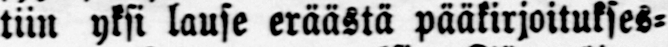tiin yksi lause eräästä pääkirjoitukses-
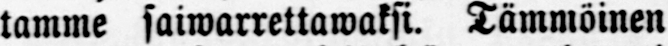tamme saiwarrettawaksi. Tämmöinen
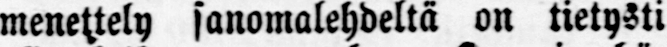menettely sanomalehdeltä on tietysti
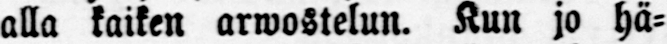alla kaiken arwostelun. Kun jo hä-
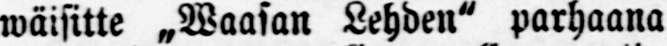wäisitte „Waalan Lehden" parhaana
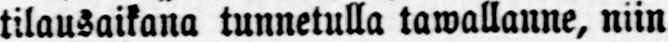tilausaikana tunnetulla tawallanne, niin
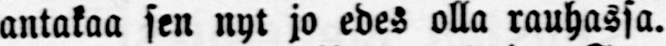antakaa sen nyt jo edes olla rauhassa.
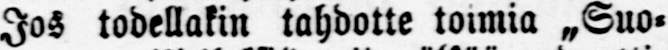Jos todellakin tahdotte toimia „Suo-
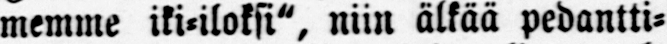memme iki-iloksi", niin älkää pedantti-
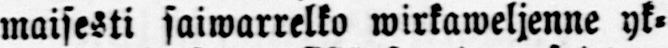maisesti saiwarrelko wirkaweljenne yk-
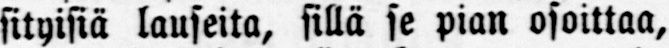sityisiä lauseita, sillä se pian osoittaa,
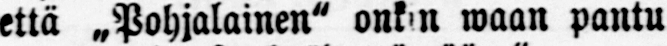että „Pohjalainen" onkin waan pantu
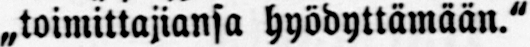„toimittajiansa hyödyttämään."
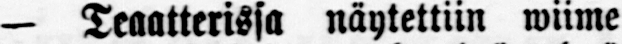— Teaatterissa näytettiin wiime
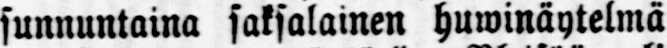sunnuntaina saksalainen huwinäytelmä
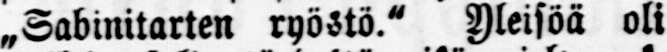„Sabinitarten ryöstö." Yleisöä oli
